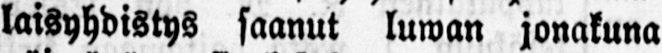laisyhdistys saanut luwan jonakuna
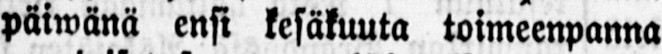päiwänä ensi kesäkuuta toimeenpanna
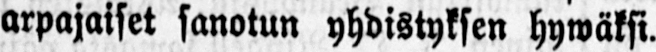arpajaiset sanotun yhdistyksen hywäksi.
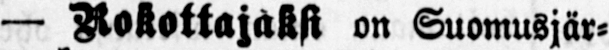— Rokottajaksi on Suomusjär-
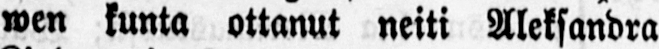wen kunta ottanut neiti Aleksandra
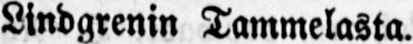Lindgrenin Tammelasta.
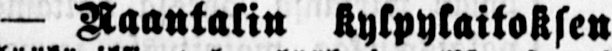— Naantalin kylpylaitoksen
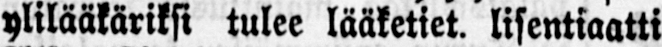ylilääkäriksi tulee lääketiet, lisentiaatti
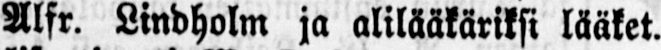Alfr. Lindholm ja alilääkäriksi lääket.
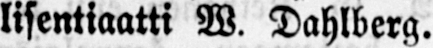lisentiaatti W. Dahlberg.
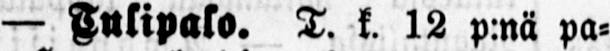— Tulipalo. T. k. 12 p:nä pa-
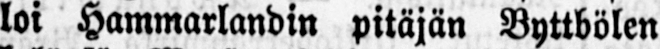loi Hammarlandin pitäjän Byttbölen
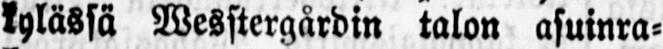kylässä Wesstergårdin talon asuinra-
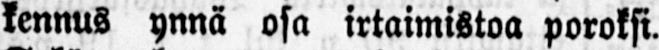kennus ynnä osa irtaimistoa poroksi.
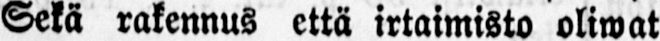Sekä rakennus että irtaimisto oliwat
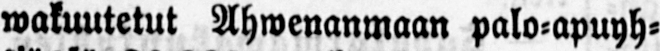wakuutetut Ahmenanmaan palo-apuyh-
